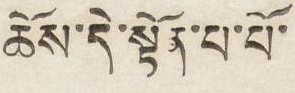ཆོས་དེ་སྟོན་པ་པོ་
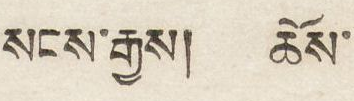སངས་རྒྱས། ཆོས་
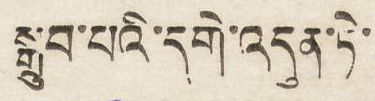སྒྲུབ་པའི་དགེ་འདུན་ཏེ་
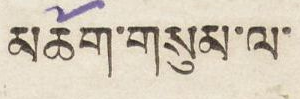མཆོག་གསུམ་ལ་
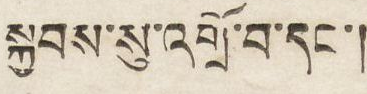སྐྱབས་སུ་འགྲོ་བ་དང་།
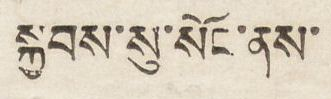སྐྱབས་སུ་སོང་ནས་
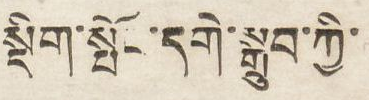སྡིག་སྤོང་དགེ་སྒྲུབ་ཀྱི་
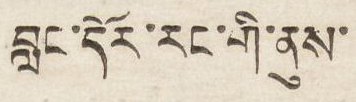བླང་དོར་རང་གི་ནུས་
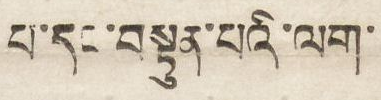པ་དང་བསྟུན་པའི་ལག་
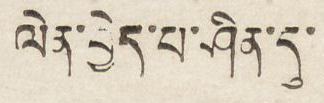ལེན་བྱེད་པ་ཤིན་དུ་
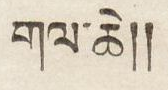གལ་ཆེ།།
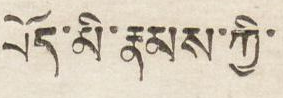བོད་མི་རྣམས་ཀྱི་
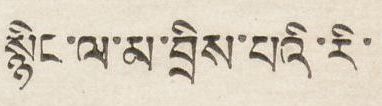སྙིང་ལ་མ་བྲིས་པའི་རི་
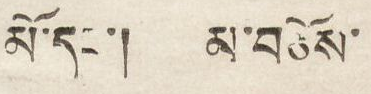མོ་དང་། མ་བཅོས་
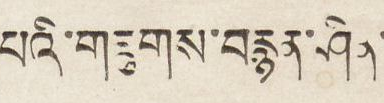པའི་གཟུགས་བརྙན་ཤིན་
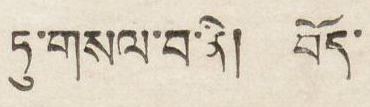ཏུ་གསལ་བ་ནི། བོད་
